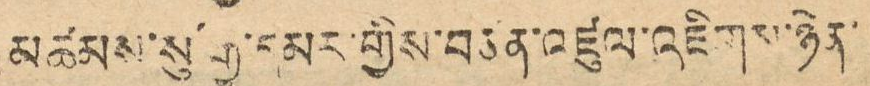མཚམས་སུ་རྒྱ་དམར་གྱིས་བཙན་འཛུལ་འཇིགས་ཉེན་
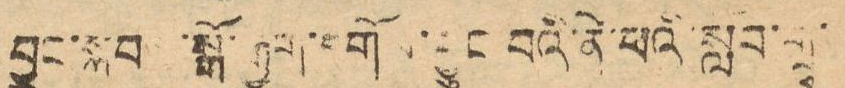བྱུང་སྐབས་སྒོ་རྒྱག་དགོས་བྱུང་བའི་ནེ་ཕེའི་སློབ་གྲྭ་
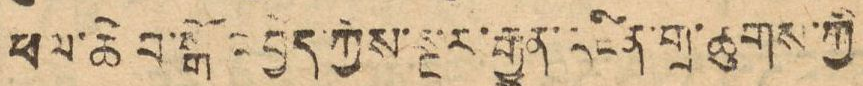ཕལ་ཆེ བ་སྒོ འབྱེད་ཀྱིས་སྔར་རྒྱུན་འཛིན་གྲ་ཚུགས་ཀྱི
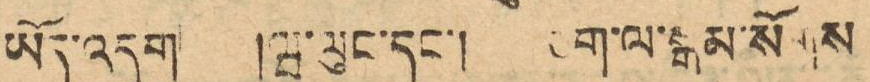ཡོད་འདུག །ཝ་ལུང་དང་། ཅག་ལ་སྒམ་སོགས
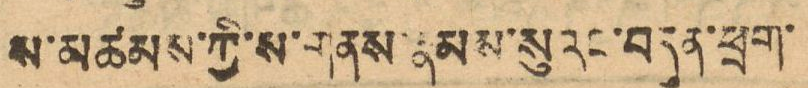ས་མཚམས་ཀྱི་ས་གནས་རྣམས་སུའང་བདུན་ཕྲག་
